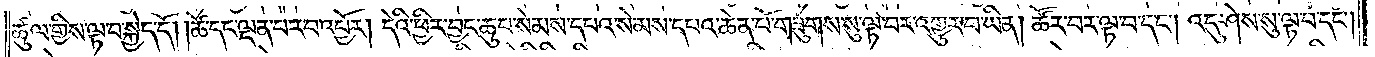ཚུལ་གྱིས་ལྟ་བ་སྐྱེད་དོ། །ཚེ་དང་ལྡན་པ་རབ་འབྱོར། དེའི་ཕྱིར་བྱང་ཆུབ་སེམས་དཔའ་སེམས་དཔའ་ཆེན་པོ་གཟུགས་སུ་ལྟ་བར་འགྱུར་བ་ཡིན། ཚོར་བར་ལྟ་བ་དང༌། འདུ་ཤེས་སུ་ལྟ་བ་དང༌།
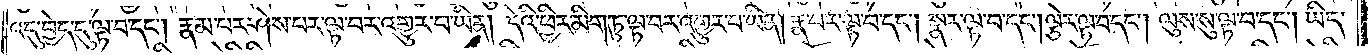འདུ་བྱེད་དུ་ལྟ་བ་དང༌། རྣམ་པར་ཤེས་པར་ལྟ་བར་འགྱུར་བ་ཡིན། དེའི་ཕྱིར་མིག་ཏུ་ལྟ་བར་འགྱུར་བ་ཡིན། རྣ་བར་ལྟ་བ་དང༌། སྣར་ལྟ་བ་དང༌། ལྕེར་ལྟ་བ་དང༌། ལུས་སུ་ལྟ་བ་དང༌། ཡིད་
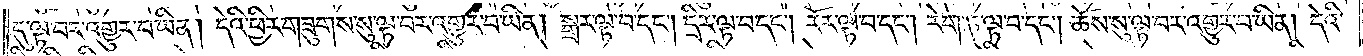དུ་ལྟ་བར་འགྱུར་བ་ཡིན། དེའི་ཕྱིར་གཟུགས་སུ་ལྟ་བར་འགྱུར་བ་ཡིན། སྒྲར་ལྟ་བ་དང༌། དྲིར་ལྟ་བ་དང༌། རོར་ལྟ་བ་དང༌། རེག་ཏུ་ལྟ་བ་དང༌། ཆོས་སུ་ལྟ་པར་འགྱུར་བ་ཡིན། དེའི་
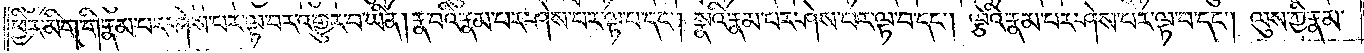ཕྱིར་མིག་གི་རྣམ་པར་ཤེས་པར་ལྟ་བར་འགྱུར་བ་ཡིན། རྣ་བའི་རྣམ་པར་ཤེས་པར་ལྟ་བ་དང༌། སྣའི་རྣམ་པར་ཤེས་པར་ལྟ་བ་དང༌། ལྕེའི་རྣམ་པར་ཤེས་པར་ལྟ་བ་དང༌། ལུས་ཀྱི་རྣམ་
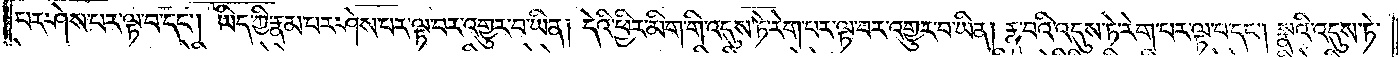པར་ཤེས་པར་ལྟ་བ་དང༌། ཡིད་ཀྱི་རྣམ་པར་ཤེས་པར་ལྟ་བར་འགྱུར་བ་ཡིན། དེའི་ཕྱིར་མིག་གི་འདུས་ཏེ་རེག་པར་ལྟ་བར་འགྱུར་བ་ཡིན། རྣ་བའི་འདུས་ཏེ་རེག་པར་ལྟ་བ་དང༌། སྣའི་འདུས་ཏེ་
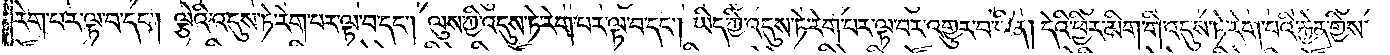རེག་པར་ལྟ་བ་དང༌། ལྕེའི་འདུས་ཏེ་རེག་པར་ལྟ་བ་དང༌། ལུས་ཀྱི་འདུས་ཏེ་རེག་པར་ལྟ་བ་དང༌། ཡིད་ཀྱི་འདུས་ཏེ་རེག་པར་ལྟ་བར་འགྱུར་བ་ཡིན། དེའི་ཕྱིར་མིག་གི་འདུས་ཏེ་རེག་པའི་རྐྱེན་གྱིས་
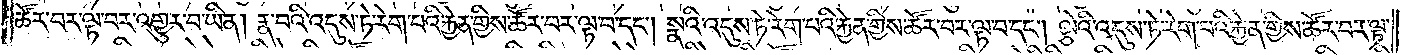ཚོར་བར་ལྟ་བར་འགྱུར་བ་ཡིན། རྣ་བའི་འདུས་ཏེ་རེག་པའི་རྐྱན་གྱིས་ཚོར་བར་ལྟ་བ་དང༌། སྣའི་འདུས་ཏེ་རེག་པའི་རྐྱེན་གྱིས་ཚོར་བར་ལྟ་བ་དང༌། ལྕེའི་འདུས་ཏེ་རེག་པའི་རྐྱེན་གྱིས་ཚོར་བར་ལྟ་
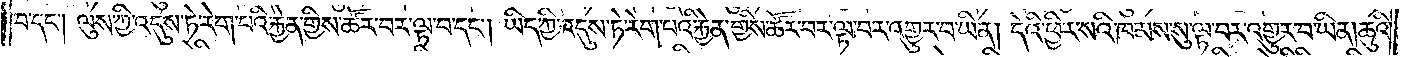བ་དང༌། ལུས་ཀྱི་འདུས་ཏེ་རེག་པའི་རྐྱེན་གྱིས་ཚོར་བར་ལྟ་བ་དང༌། ཡིད་ཀྱི་འདུས་ཏེ་རེག་པའི་རྐྱེན་གྱིས་ཚོར་བར་ལྟ་བར་འགྱུར་བ་ཡིན། དེའི་ཕྱིར་སའི་ཁམས་སུ་ལྟ་བར་འགྱུར་བ་ཡིན། ཆུའི་
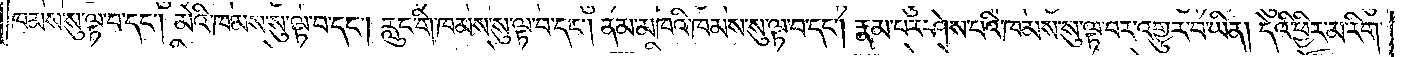ཁམས་སུ་ལྟ་བ་དང༌། མེའི་ཁམས་སུ་ལྟ་བ་དང༌། རླུང་གི་ཁམས་སུ་ལྟ་བ་དང༌། ནམ་མཁའི་ཁམས་སུ་ལྟ་བ་དང༌། རྣམ་པར་ཤེས་པའི་ཁམས་སུ་ལྟ་བར་འགྱུར་བ་ཡིན། དེའི་ཕྱིར་མ་རིག་
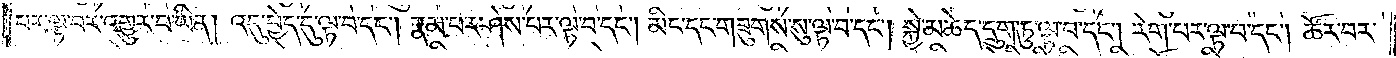པར་ལྟ་བར་འགྱུར་བ་ཡིན། འདུ་བྱེད་དུ་ལྟ་བ་དང༌། རྣམ་པར་ཤེས་པར་ལྟ་བ་དང༌། མིང་དང་གཟུགས་སུ་ལྟ་བ་དང༌། སྐྱེ་མཆེད་དྲུག་ཏུ་ལྟ་བ་དང༌། རེག་པར་ལྟ་བ་དང༌། ཚོར་བར་
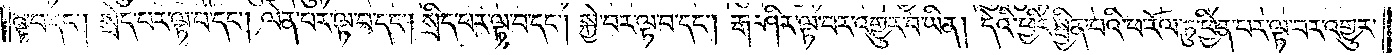ལྟ་བ་དང༌། སྲེད་པར་ལྟ་བ་དང༌། ལེན་པར་ལྟ་བ་དང༌། སྲིད་པར་ལྟ་བ་དང༌། སྐྱེ་བར་ལྟ་བ་དང༌། རྒ་ཤིར་ལྟ་བར་འགྱུར་བ་ཡིན། དེའི་ཕྱིར་སྦྱིན་པའི་ཕ་རོལ་ཏུ་ཕྱིན་པར་ལྟ་བར་འགྱུར་
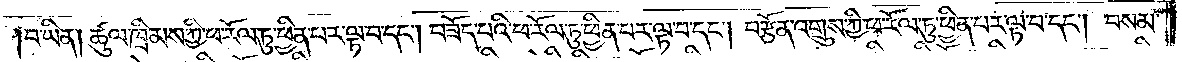བ་ཡིན། ཚུལ་ཁྲིམས་ཀྱི་ཕ་རོལ་ཏུ་ཕྱིན་པར་ལྟ་བ་དང༌། བཟོད་པའི་ཕ་རོལ་ཏུ་ཕྱིན་པར་ལྟ་བ་དང༌། བརྩོན་འགྲུས་ཀྱི་ཕ་རོལ་ཏུ་ཕྱིན་པར་ལྟ་བ་དང༌། བསམ་
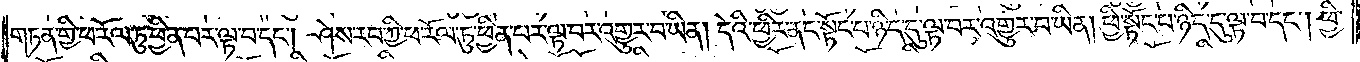གཏན་གྱི་ཕ་རོལ་ཏུ་ཕྱིན་པར་ལྟ་བ་དང༌། ཤེས་རབ་ཀྱི་ཕ་རོལ་ཏུ་ཕྱིན་པར་ལྟ་བར་འགྱུར་བ་ཡིན། དེའི་ཕྱིར་ནང་སྟོང་པ་ཉིད་དུ་ལྟ་བར་འགྱུར་བ་ཡིན། ཕྱི་སྟོང་པ་ཉིད་དུ་ལྟ་བ་དང༌། ཕྱི་
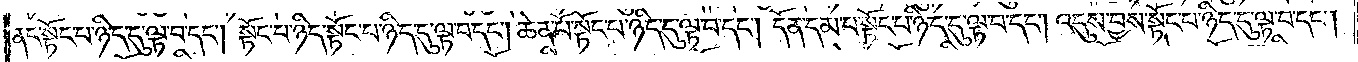ནང་སྟོང་པ་ཉིད་དུ་ལྟ་བ་དང༌། སྟོང་པ་ཉིད་སྟོང་པ་ཉིད་དུ་ལྟ་བ་དང༌། ཆེན་པོ་སྟོང་པ་ཉིད་དུ་ལྟ་བ་དང༌། དོན་དམ་པ་སྟོང་པ་ཉིད་དུ་ལྟ་བ་དང༌། འདུས་བྱས་སྟོང་པ་ཉིད་དུ་ལྟ་བ་དང༌།
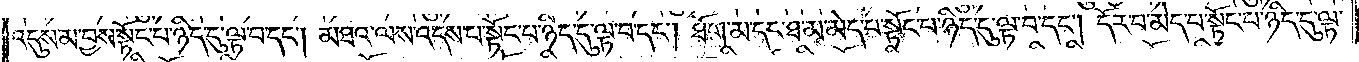འདུས་མ་བྱས་སྟོང་པ་ཉིད་དུ་ལྟ་བ་དང༌། མཐའ་ལས་འདས་པ་སྟོང་པ་ཉིད་དུ་ལྟ་བ་དང༌། ཐོག་མ་དང་ཐ་མ་མེད་པ་སྟོང་པ་ཉིད་དུ་ལྟ་བ་དང༌། དོར་བ་མེད་པ་སྟོང་པ་ཉིད་དུ་ལྟ་
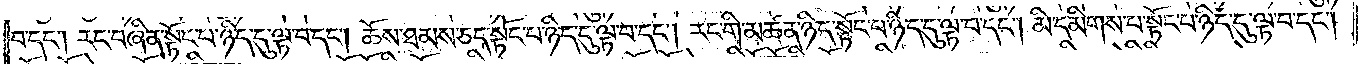བ་དང༌། རང་བཞིན་སྟོང་པ་ཉིད་དུ་ལྟ་བ་དང༌། ཆོས་ཐམས་ཅད་སྟོང་པ་ཉིད་དུ་ལྟ་བ་དང༌། རང་གི་མཚན་ཉིད་སྟོང་པ་ཉིད་དུ་ལྟ་བ་དང༌། མི་དམིགས་པ་སྟོང་པ་ཉིད་དུ་ལྟ་བ་དང༌།
